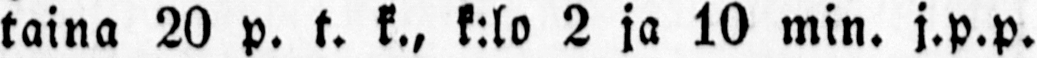taina 20 p. t. k., k:lo 2 ja 10 min. j.p.p.
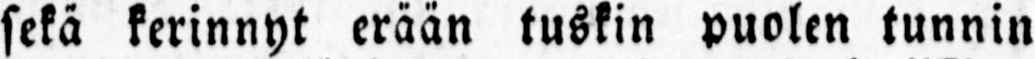sekä kerinnyt erään tuskin puolen tunnin
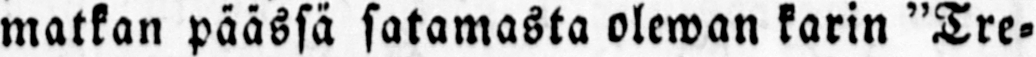matkan päässä satamasta olewan karin "Tre-
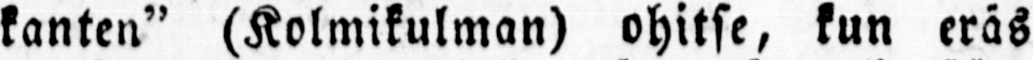kanten" (Kolmikulman) ohitse, kun eräs
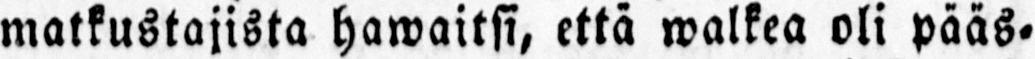matkustajista hawaitsi, että walkea oli pääs-
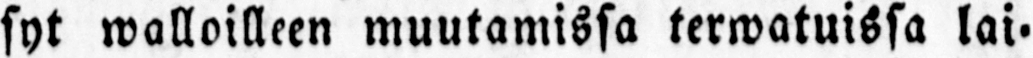syt walloilleen muutamissa terwatuissa lai-
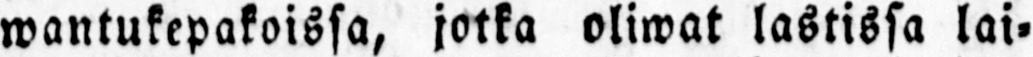wantukepakoissa, jotka oliwat lastissa lai-
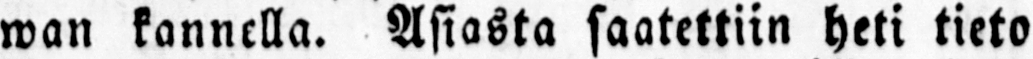wan kannella. Asiasta saatettiin heti tieto
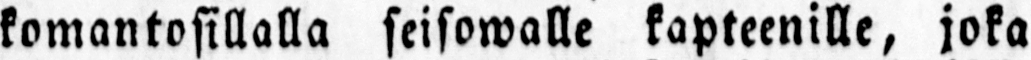komantosillalla seisowalle kapteenille, joka
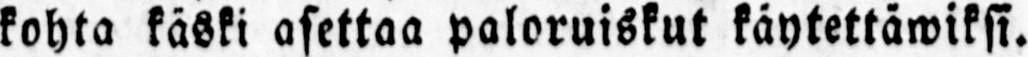kohta käski asettaa paloruiskut käytettäwiksi.
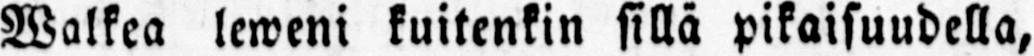Walkea leweni kuitenkin sillä pikaisuudella,
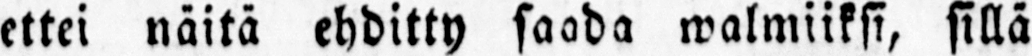ettei näitä ehditty saada walmiiksi, sillä
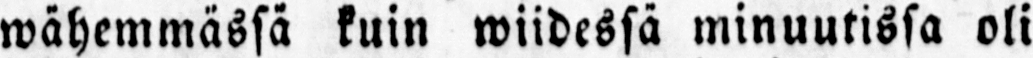wähemmässä kuin wiidessä minuutissa oli
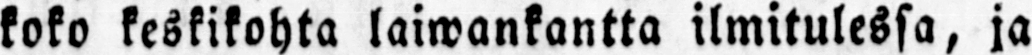koko keskikohta laiwankantta ilmitulessa, ja
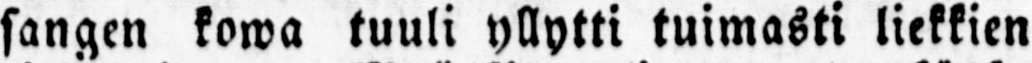sangen kowa tuuli yllytti tuimasti liekkien
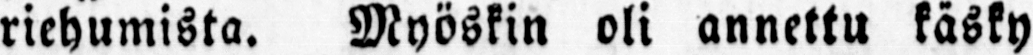riehumista. Myöskin oli annettu käsky
